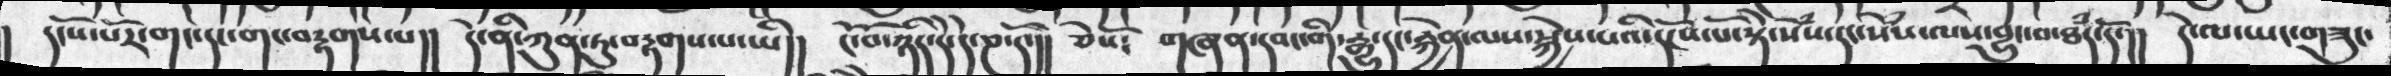།  དངོས་པོར་གང་དང་གང་བརྟགས་པ།།  དེ་ནི་ཀུན་ཏུ་བརྟགས་པ་ཡི།།  ངོ་བོ་ཉིད་དེ་དེ་ཎ་དོ།།  ཅེསོ༴  གཞན་དབང་གི་རྒྱུ་དང་རྐྱེན་ལས་སྐྱེས་པའི་དངོས་པོ་སྟེ་སེཾས་དང་སེཾས་ལས་བྱུང་བ་ཐཾད་དོ་།།  དེ་ལ་ཡང་གཟུང་
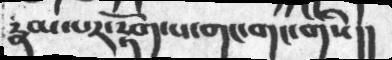རྣམ་པར་རྟོག་པ་གང་གང་གིས།།
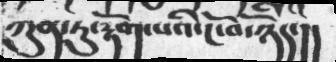ཀུན་ཏུ་རྟོག་པའི་ངོ་བོ་ཉིད་།།
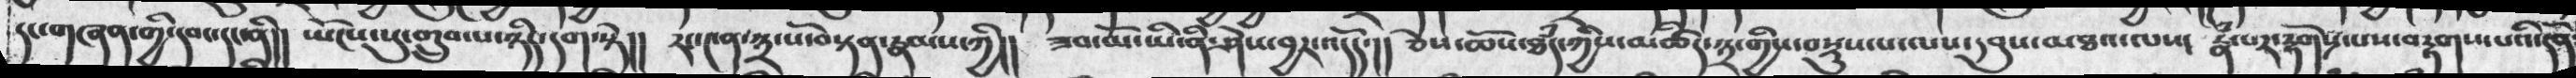དང་གཞན་གྱི་དབང་དང་ནི།།  ཡོངས་སུ་གྲུབ་པ་ཉིད་དག་སྟེ།།  རང་༤ན་༣་པོ་བསྟན་རྣམས་ཀྱི།།  ཟམ་མོ་ཡི་ནི་ཤེས་བྱར་འདོད་།།  ཅེས་ཆོས་ཐཾད་ཀྱིས་མཚིད་༣་གྱིས་བསྟུས་པ་ལས་དབུས་མཐའ་ལས༴  རྣཾ་པར་རྟོགས་པས་བརྟགས་པའི་དོན
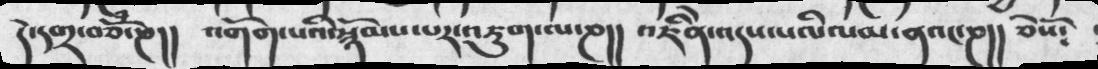དེ་དགྲ་བཅོཾ་ཎ།། འགོག་པའི་སྙོམས་པར་འཇུག་ལ་ཎ།། འཇིེན་འདས་པའི་ལམ་ནའང་ཎ།། ཅེསོ༴
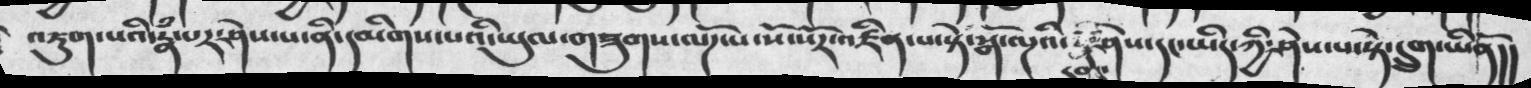འཇུག་པའི་རྣཾ་པར་ཤེས་པ་ནི་དམིགས་པའི་ཡུལ་གཟུགས་ལོཌ་པ་སོ་སོར་འཛིན་པ་སྟེ་སྒོ་ལྔའི་དབང་ཤེས་དང་ཡིད་ཀྱི་ཤེས་པ་སྟེ་དྲུག་ཡིནོ།།
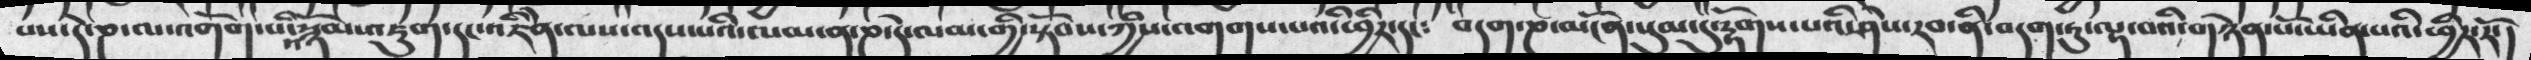པས་དེ་ཎ་ལ་འགོག་པའི་སྙོམས་འཇུག་དང་འཇིེན་ལས་འདས་པའི་ལམ་ན་ཎ་དེ་ལམ་གྱི་སྟོབས་ཀྱིས་འགགས་པའི་ཕྱིར་དང༴   བདག་ཎ་མངོན་སུམ་དུ་རྟོགས་པའི་ཤེས་རབ་ནི་བདག་ཏུ་ལྟ་བའི་གཉེན་པོ་ཡིན་པའི་ཕྱིར་རོ་།
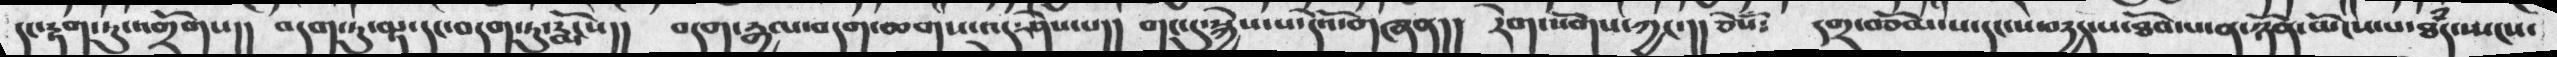དང་རྟག་ཏུ་འགྲོགས།། བདག་ཏུ་ལྟ་དང་བདག་ཏུ་རྨོངས།། བདག་རྒྱལ་བདག་ཆགས་འདུ་ཤེས་པ།། གང་དུ་སྐྱེས་པ་དེའོ་གཞན།། རེག་སོགས་ཀྱང་།། ཅེསོ༴ དགྲ་བཅོམ་པ་དང་ས་བདྱད་པ་ཐོབ་པ་ན་ཉོན་མོངས་པ་ཐཾད་སྤངས་
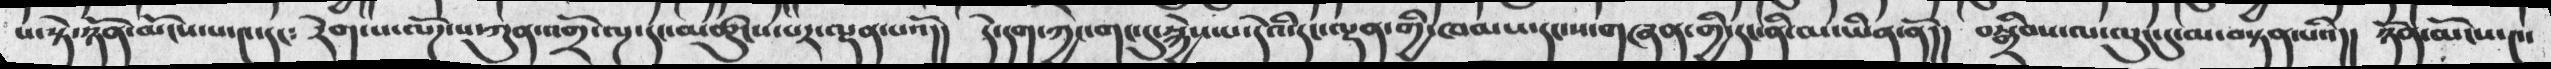པ་སྟེ་ཉོན་མོངས་པ་༤་དང༴ རེག་པ་ལོཌ་པ་ཀུན་འགྲོ་ལྔ་དང་མཚུངས་པར་ལྡན་པའོ།། དེ་དག་ཀྱང་གང་དུ་སྐྱེས་པ་དེའི་དང་ལྡན་གྱི་ཁམས་དང་ས་གཞན་གྱི་དང་ནི་མ་ཡིན་ནོ།། བསྒྲིབས་ལ་ལུང་དུ་མ་བསྟན་པའི།། ཉོན་མོངས་༤་
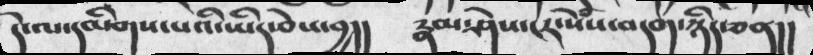དེ་མ་དམིགས་པའི་ཡིད་ཅེས་བྱ།། རྣམ་ཤེས་ངར་སེཾས་བདག་ཉིད་ཅན།།
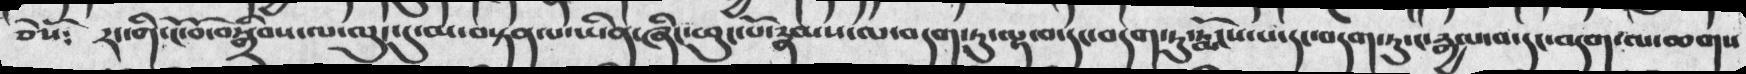ཅེསོ༴ རང་གི་ངོ་བོ་བསྒྲིབས་ལ་ལུང་དུ་མ་བསྟན་པ་ཡིན་ཞིང་ཕུང་པོ་རྣམས་ལ་བདག་ཏུ་ལྟ་བ་དང་བདག་ཏུ་རྨོངས་པ་དང་བདག་ཏུ་ང་རྒྱལ་བ་དང་བདག་ལ་ཆགས
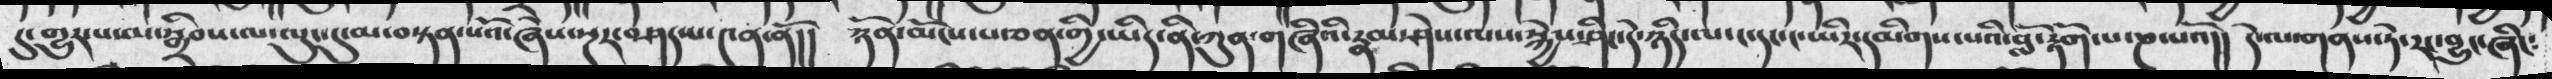དུ་གྱུར་པ་ལ་སྒྲིབས་ལ་ལུང་དུ་མ་བསྟན་པའོ་ཞེས་སྔར་བཤད་པ་༤ན་ནོ།། ཉོན་མོངས་པ་ཅན་གྱི་ཡིད་ནི་ཀུན་གཞིའི་རྣམ་ཤེས་ལས་སྐྱེས་ཤིང་དེ་ཉིད་ལ་ང་དང་ང་ཡིར་དམིགས་པའི་བློ་རྟོག་པ་ཎ་པའོ།། དེ་ལ་གནས་ཏེ་རང་བྱུང་ཞིང༴
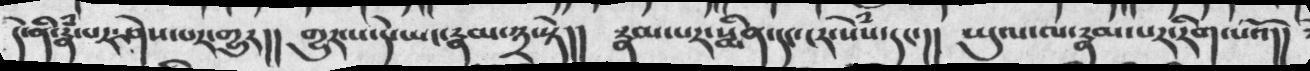དེ་ནི་རྣཾ་པར་ཤེས་པར་གྱུར།། གྱུར་པ་དེ་ཡང་རྣམ་༣་སྟེ།། རྣམ་པར་སྨིན་དང་ངར་སེཾས་དང་།། ཡུལ་ལ་རྣམ་པར་རིག་པའོ།།
